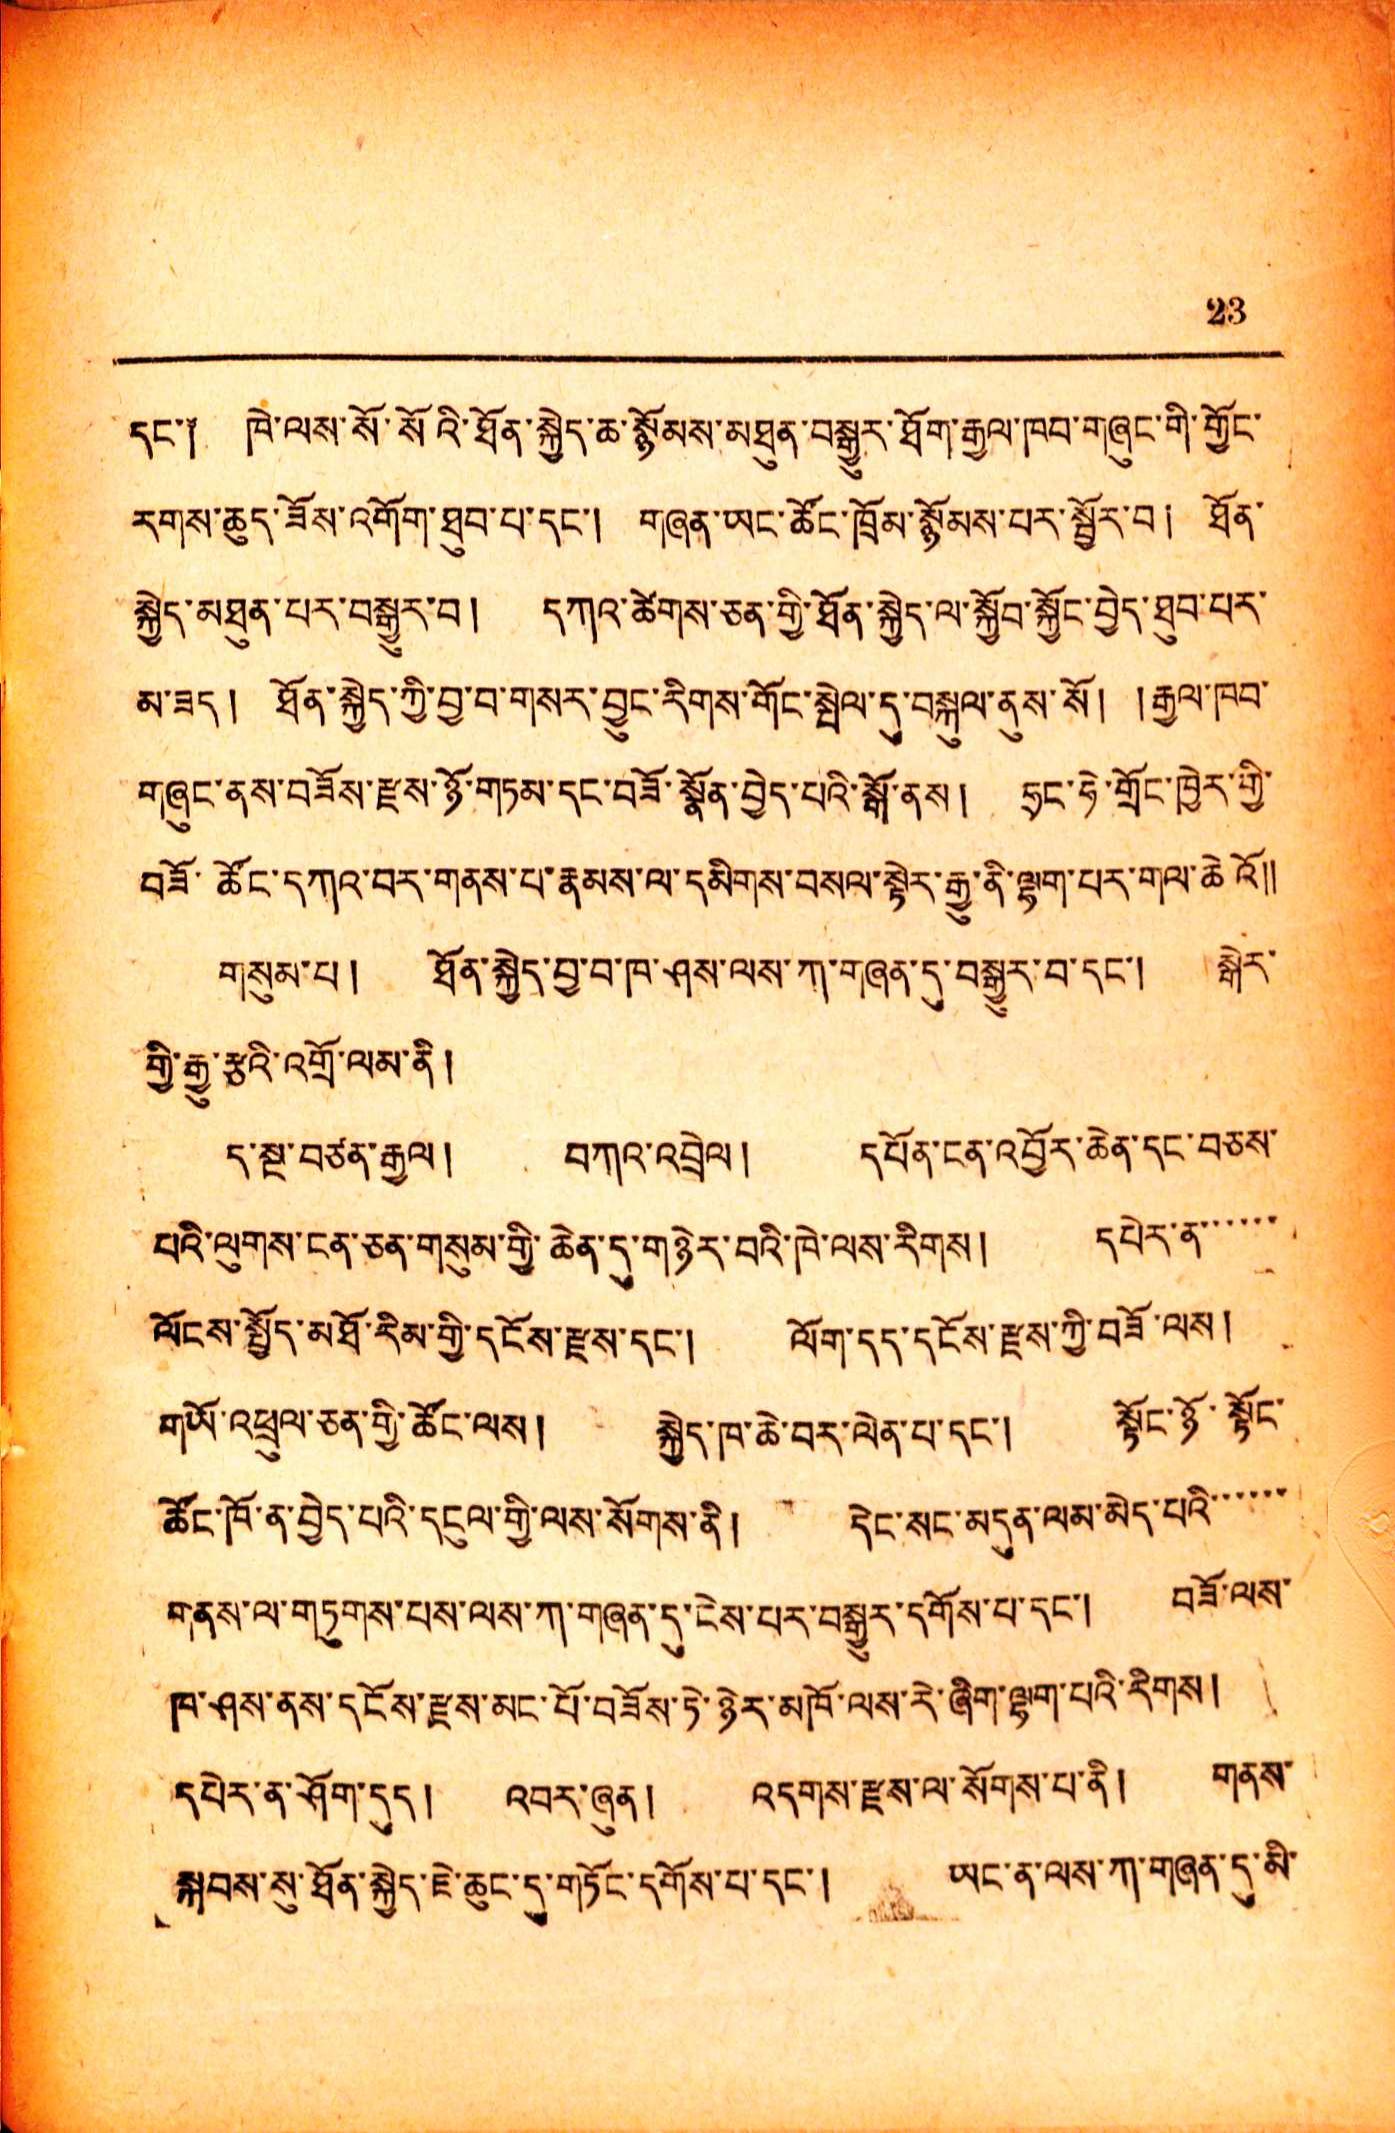23
དང་། ཁེ་ལས་སོ་སོའི་ཐོན་སྐྱེད་ཆ་སྙོམས་མཐུན་བསྒྱུར་ཐོག་རྒྱལ་ཁབ་གཞུང་གི་གྱོང་
རགས་ཆུད་ཟོས་འགོག་ཐུབ་པ་དང་། གཞན་ཡང་ཚོང་ཁྲོམ་སྙོམས་པར་སྦྱོར་བ། ཐོན་
སྐྱེད་མཐུན་པར་བསྒྱུར་བ། དཀའ་ཚེགས་ཅན་གྱི་ཐོན་སྐྱེད་ལ་སྐྱོབ་སྐྱོང་བྱེད་ཐུབ་པར་
མ་ཟད། ཐོན་སྐྱེད་ཀྱི་བྱ་བ་གསར་བྱུང་རིགས་གོང་སྤེལ་དུ་བསྐུལ་ནུས་སོ། །རྒྱལ་ཁབ་
གཞུང་ནས་བཟོས་རྫས་ཉོ་གཏམ་དང་བཟོ་སྣོན་བྱེད་པའི་སྒོ་ནས། ཧྲང་ཧེ་གྲོང་ཁྱེར་གྱི་
བཟོ་ཚོང་དཀའ་བར་གནས་པ་རྣམས་ལ་དམིགས་བསལ་སྟེར་རྒྱུ་ནི་ལྷག་པར་གལ་ཆེའོ༎
གསུམ་པ། ཐོན་སྐྱེད་བྱ་བ་ཁ་ཤས་ལས་ཀ་གཞན་དུ་བསྒྱུར་བ་དང་། སྒེར་
གྱི་རྒྱུ་རྩའི་འགྲོ་ལམ་ནི།
ད་སྔ་བཙན་རྒྱལ། བཀའ་འབྲེལ། དཔོན་ངན་འབྱོར་ཆེན་དང་བཅས་
བའི་ལུགས་ངན་ཅན་གསུམ་གྱི་ཆེན་དུ་གཉེར་བའི་ཁེ་ལས་རིགས། དཔེར་ན་་་་་་
ལོངས་སྤྱོད་མཐོ་རིམ་གྱི་དངོས་རྫས་དང་། ལོག་དད་དངོས་རྫས་ཀྱི་བཟོ་ལས།
གཡོ་འཕྲུལ་ཅན་གྱི་ཚོང་ལས། སྐྱེད་ཁ་ཆེ་བར་ལེན་པ་དང་། སྟོང་ཉོ་སྟོང་
ཚོང་ཁོ་ན་བྱེད་པའི་དངུལ་གྱི་ལས་སོགས་ནི། དེང་སང་མདུན་ལམ་མེད་པའི་་་་་་
གནས་ལ་གཏུགས་པས་ལས་ཀ་གཞན་དུ་ངེས་པར་བསྒྱུར་དགོས་པ་དང་། བཟོ་ལས་
ཁ་ཤས་ནས་དངོས་རྫས་མང་པོ་བཟོས་ཏེ་ཉེར་མཁོ་ལས་རེ་ཞིག་ལྷག་པའི་རིགས།
འཔེར་ན་ཤོག་དུད། འབར་ཞུན། འདགས་རྫས་ལ་སོགས་པ་ནི། གནས་
སྐབས་སུ་ཐོན་སྐྱེད་ཇེ་ཆུང་དུ་གཏོང་དགོས་པ་དང་། ཡང་ན་ལས་གཞན་དུ་མི་
